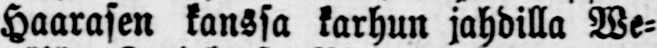Haarasen kanssa karhun jahdilla We-
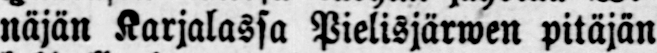näjän Karjalassa Pielisjärwen pitäjän
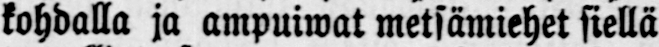kohdalla ja ampuiwat metsämiehet siellä
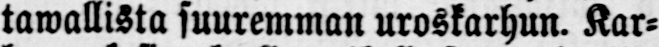tawallista suuremman uroskarhun. Kar-
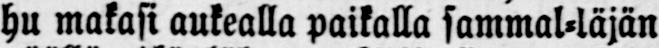hu makasi aukealla paikalla sammal-läjän
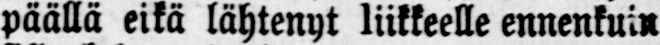päällä eikä lähtenyt liikkeelle ennenkuin
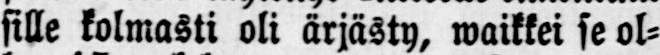sille kolmasti oli ärjästy, waikkei se ol-
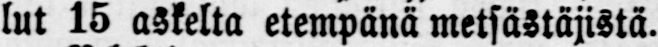lut 15 askelta etempänä metsästäjistä.
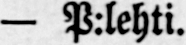— P:lehti.
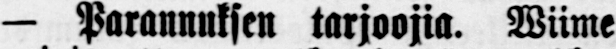— Parannuksen tarjoajia. Wiime
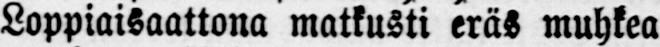Loppiaisaattona matkusti eräs muhkea
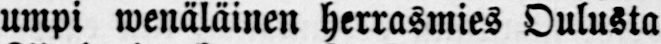umpi wenäläinen herrasmies Oulusta
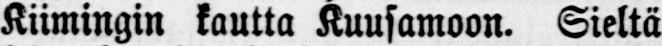Kiimingin kautta Kuusamoon. Sieltä
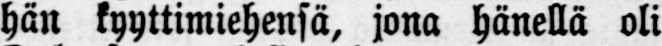hän kyyttimiehensä, jona hänellä oli
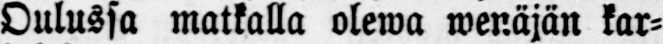Oulussa matkalla olewa wenäjän kar-
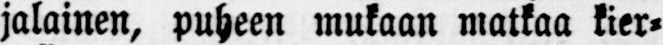jalainen, puheen mukaan matkaa kier-
